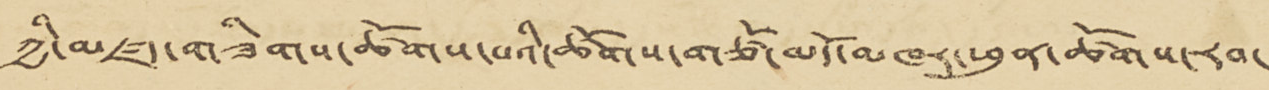ཀྱི་མཛད་གཟིགས་ཚོགས་པའི་ཚོགས་གཙོ་མདོ་མཁར་ཕུན་ཚོགས་རབ་
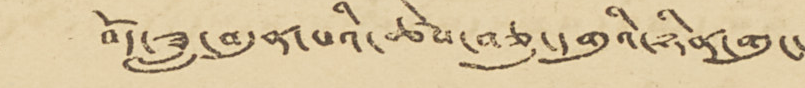བོད་ཟླ་བདུན་པའི་ཚེས་བཅུ་དགུའི་ཉིན་གུང་
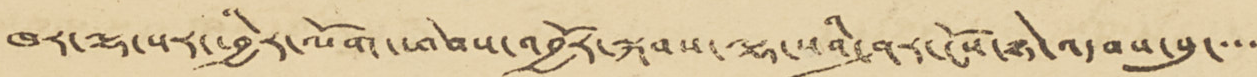ཁར་ལྷ་སར་ཕྱིར་ལོག་ཕེབས་འབྱོར་སྐབས་ལྷ་སའི་ཤར་ངོས་ཉེ་འདབས་སུ་་་་་
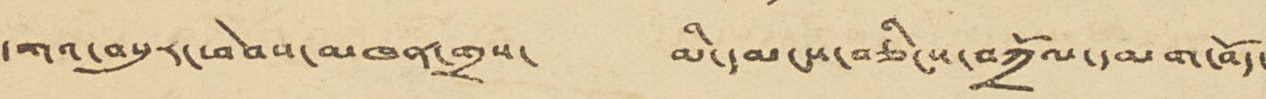དགའ་བསུར་ཕེབས་མཁན་གྲས་ མི་དམངས་བཅིངས་བཀྲོལ་དམག་བོད་
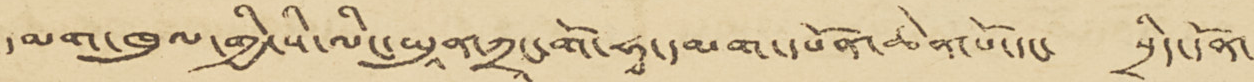དམག་ཁུལ་གྱི་སི་ལིང་ཡཱུན་ཀྲཱང་གོ་ཧྭ་དམག་དཔོན་ཆེན་པོ་དང་ སྲིད་དོན་
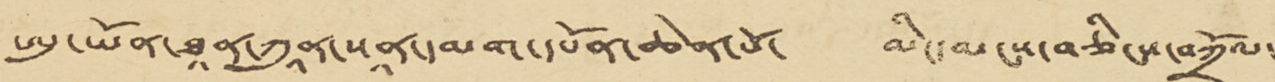ཨུ་ཡོན་ཐཱན་ཀཱུན་སཱན་དམག་དཔོན་ཆེན་པོ་ མི་དམངས་བཅིངས་བཀྲོལ་
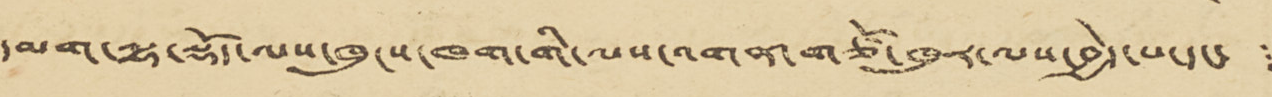དམག་ལྷ་སྡོད་ལས་ཁུངས་ཁག་གི་ལས་འགན་གཙོ་ཁུར་ལས་བྱེད་པ་དང་ །
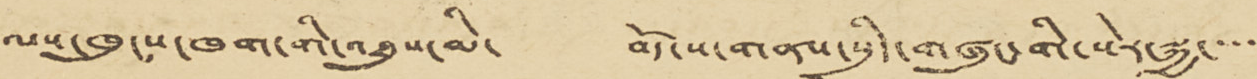ལས་ཁུངས་ཁག་གི་འཐུས་མི་ བོད་ས་གནས་སྲིད་གཞུང་གི་སེར་སྐྱ་་་་་
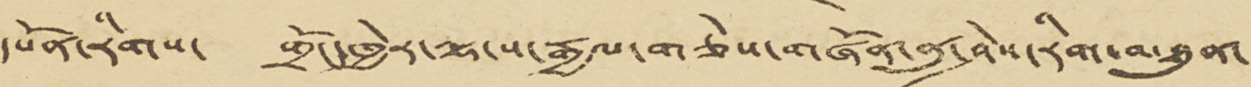དཔོན་རིགས་ གྲོང་ཁྱེར་ལྷ་ས་རྒྱལ་གཅེས་གཞོན་ནུ་ཤེས་རིག་མཐུན་
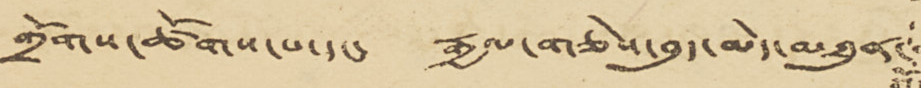གྲོགས་ཚོགས་པ་དང་ རྒྱལ་གཅེས་བུད་མེད་མཐུན་
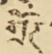གྲོཊ་
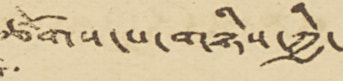ཚོགས་པ་གཉིས་ཀྱི་
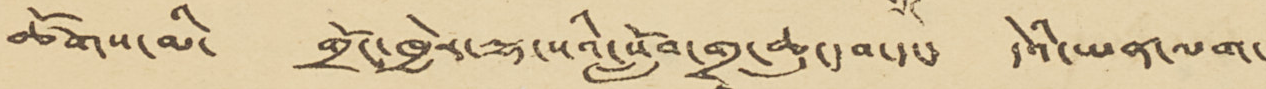ཚོགས་མི་ གྲོང་ཁྱེར་ལྷ་སའི་སློབ་གྲྭ་ཆུང་བ་དང་ དེའི་ཡན་ལག་
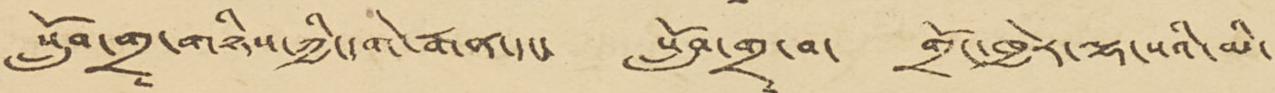སློབ་གྲྭ་གཉིས་ཀྱི་དགེ་རྒན་དང་ སློབ་གྲྭ་བ་ གྲོང་ཁྱེར་ལྷ་སའི་མི་
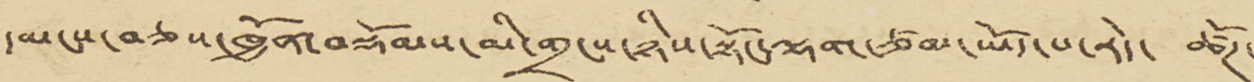དམངས་བཅས་ཁྱོན་བསྡོམས་མི་གྲངས་ཉིས་སྟོང་ལྷག་ཙམ་ཡོད་པ་རེད་ ཚོཊ་
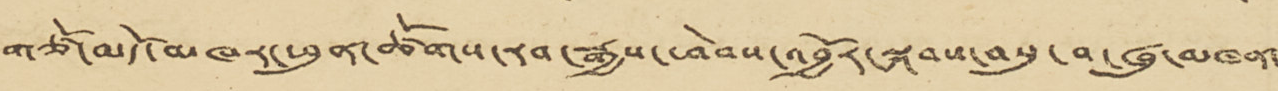གཙོ་མདོ་མཁར་ཕུན་ཚོགས་རབ་རྒྱས་ཕེབས་འབྱོར་སྐབས་བསུ་བ་ཞུ་མཁན་
